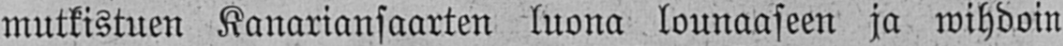mutkistuen Kanariansaarten luona lounaaseen ja wihdoin
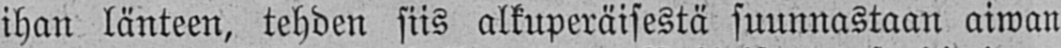ihan länteen, tehden siis alkuperäisestä suunnastaan aiwan
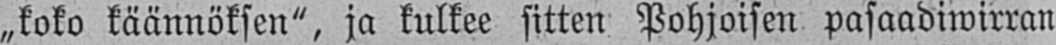„koko käännöksen", ja kulkee sitten Pohjoisen pasaadiwirran
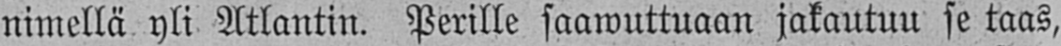nimellä yli Atlantin. Perille saawuttuaan jakautuu se taas,
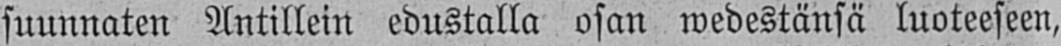suunnaten Antillein edustalla osan wedestänsä luoteeseen,
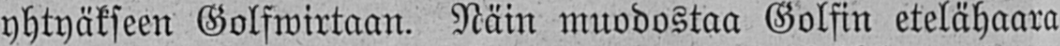yhtyäkseen Golfwirtaan. Näin muodostaa Golfin etelähaara
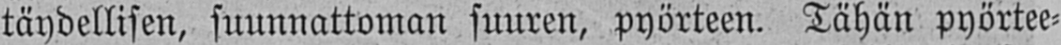täydellisen, suunnattoman suuren, pyörteen. Tähän pyörtee-
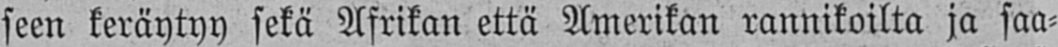seen keräytyy sekä Afrikan että Amerikan rannikoilta ja saa-
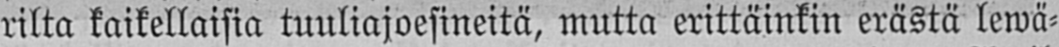rilta kaikellaisia tuuliajoesineitä, mutta erittäinkin erästä lewä-
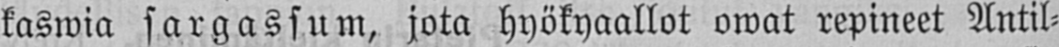kaswia sargassum, jota hyökyaallot owat repineet Antil-
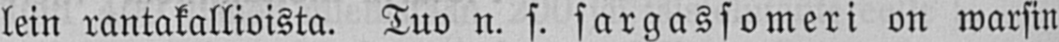lein rantakallioista. Tuo n. s. sargassomeri on warsin
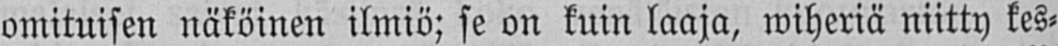omituisen näköinen ilmiö; se on kuin laaja, wiheriä niitty kes-
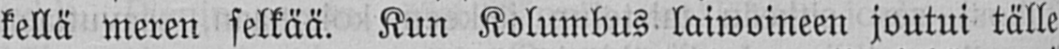kellä meren selkää. Kun Kolumbus laiwoineen joutui tälle
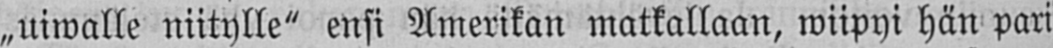„uiwalle niitylle" ensi Amerikan matkallaan, wiipyi hän pari
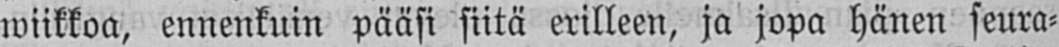wiikkoa, ennenkuin pääsi siitä erilleen, ja jopa hänen seura-
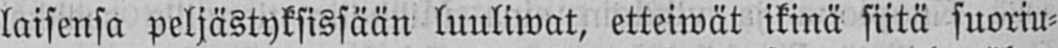laisensa peljästyksissään luuliwat, etteiwät ikinä siitä suoriu-
